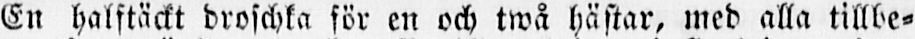En halftäckt droschka för en och twå hästar, uied alla tillbe-
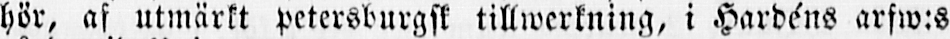hör, af utmärkt Petersburgs! tillwerkning, i Harduns arfw:s
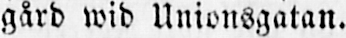gård wid Uuiousgatan,
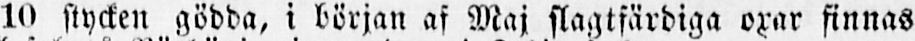1>> stycke» gödda, i börja» af Maj slagtfärdiga orar finnas
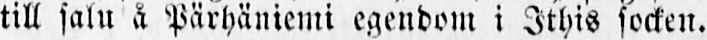till faln H Pärhäuieuii egendom i Ithis socken.
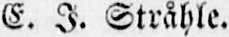E. I. Stråhle.
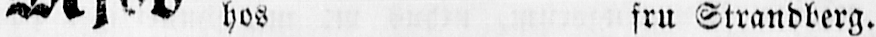Mjöd hos fru Strandberg.
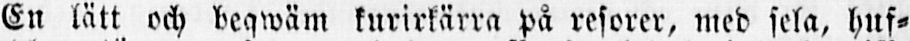En lätt och beqwäm kurirkärra på resorer, med sela, huf-
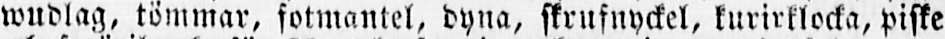wudlag, tömmar, fotmantel, dyna, skrufnyckel, kurirklocka, piske
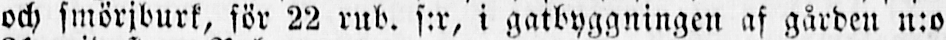och smörjburk, för 22 rub. s:r, i gatbyggningen af gården n:o
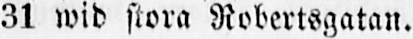31 wid stora Robertsgatan.
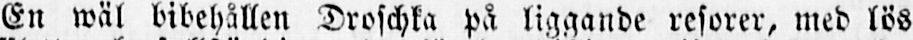En wäl bibehållen Droschka på liggande resorer, med lös
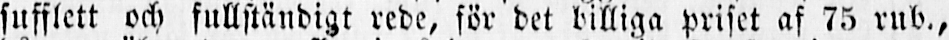sufflett och fullständigt rede, för det billiga priset af 75 rub.,
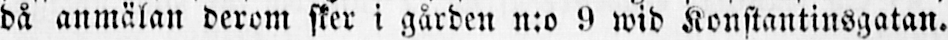då anmälan derom sker i gården n:o 9 wid Konstantinsgatan.
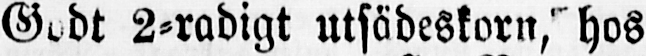Godt 2-radigt utsädeskorn, hos
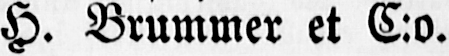H. Brummer et C:o.
